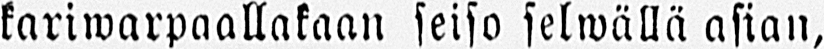kariwarpaallakaan seiso selwällä asian,
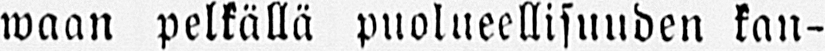waan pelkällä puolueellisuuden kan-
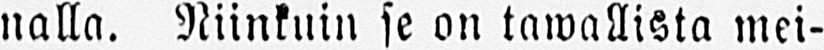nalla. Niinkuin se on tawallista mei-
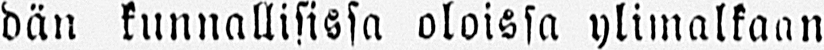dän kunnallisissa oloissa ylimalkaan
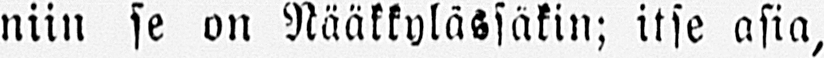niin se on Rääkkylässäkin; itse asia,
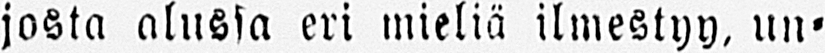josta alussa eri mieliä ilmestyy, un-
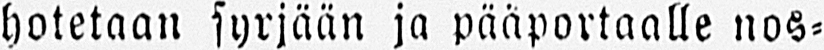hotetaan syrjään ja pääportaalle nos-
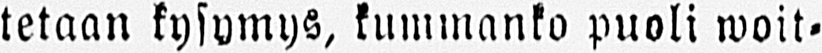tetaan kysymys, kummanko puoli woit-
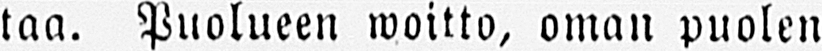taa. Puolueen woitto, oman puolen
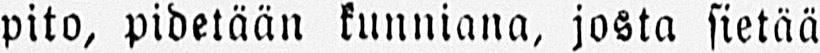pito, pidetään kunniana, josta sietää
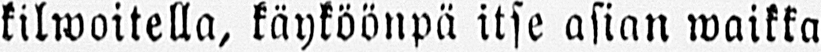kilwoitella, käyköönpä itse asian waikka
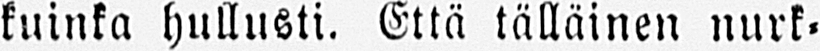kuinka hullusti. Että tälläinen nurk-
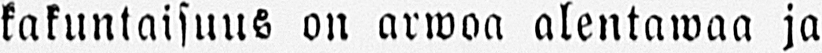kakuntaisuus on arwoa alentawaa ja
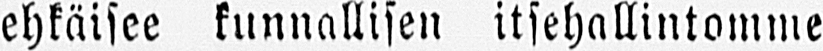ehkäisee kunnallisen itsehallintomme
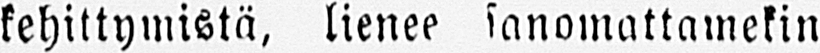kehittymistä, lienee sanomattamekin
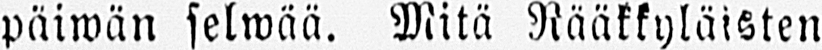päiwän selwää. Mitä Rääkkyläisten
